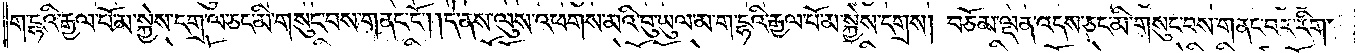ག་དྷའི་རྒྱལ་པོ་མ་སྐྱེས་དགྲ་ལ་ཅང་མི་གསུང་བས་གནང་ངོ༌། །དེ་ནས་ལུས་འཕགས་མའི་བུ་ཡུལ་མ་ག་དྷའི་རྒྱལ་པོ་མ་སྐྱེས་དགྲས། བཅོམ་ལྡན་འདས་ཅང་མི་གསུང་བས་གནང་བར་རིག་
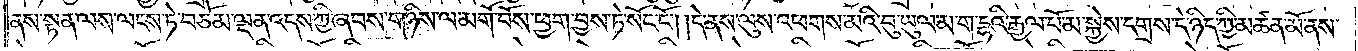ནས་སྟན་ལས་ལངས་ཏེ་བཅོམ་ལྡན་འདས་ཀྱི་ཞབས་གཉིས་ལ་མགོ་བོས་ཕྱག་བྱས་ཏེ་སོང་ངོ༌། །དེ་ནས་ལུས་འཕགས་མའི་བུ་ཡུལ་མ་ག་དྷའི་རྒྱལ་པོ་མ་སྐྱེས་དགྲས་དེ་ཉིད་ཀྱི་མཚན་མོ་ནས་
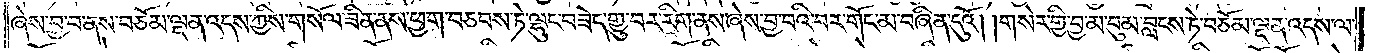ཞེས་བྱ་བ་ནས་བཅོམ་ལྡན་འདས་ཀྱིས་གསོལ་ཟིན་ནས་ཕྱག་བཅབས་ཏེ་ལྷུང་བཟེད་གྱུ་བར་རིག་ནས་ཞེས་བྱ་བའི་བར་གོང་མ་བཞིན་དུའོ། །གསེར་གྱི་བྱ་མ་བུམ་བླངས་ཏེ་བཅོམ་ལྡན་འདས་ལ་
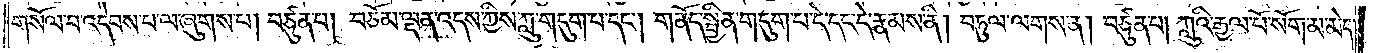གསོལ་བ་འདེབས་པ་ལ་ཞུགས་པ། བཙུན་པ། བཅོམ་ལྡན་འདས་ཀྱིས་ཀླུ་གདུག་པ་དང༌། གནོད་སྦྱིན་གདུག་པ་དེ་དང་དེ་རྣམས་ནི། བཏུལ་ལགས་ན། བཙུན་པ། ཀླུའི་རྒྱལ་པོ་སོག་མ་མེད།
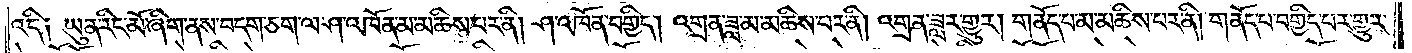འདི༑ ཡུན་རིང་མོ་ཞིག་ནས་བདག་ཅག་ལ་ཤ་འཁོན་མ་མཆིས་པར་ནི། ཤ་འཁོན་བགྱིད། འགྲན་ཟླ་མ་མཆིས་པར་ནི། འགྲན་ཟླར་གྱུར། གནོད་པ་མ་མཆིས་པར་ནི། གནོད་པ་བགྱིད་པར་གྱུར་
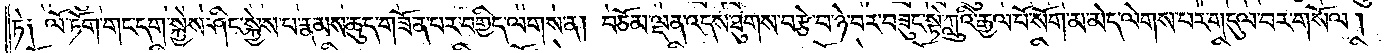ཏེ༑ ལོ་ཏོག་གང་དག་སྐྱེས་ཤིང་སྐྱེས་པ་རྣམས་ཆུད་གཟོན་པར་བགྱིད་ལགས་ན། བཅོམ་ལྡན་འདས་ཐུགས་བརྩེ་བ་ཉེ་བར་བཟུང་སྟེ་ཀླུའི་རྒྱལ་པོ་སོག་མ་མེད་ལེགས་པར་གདུལ་བར་གསོལ།
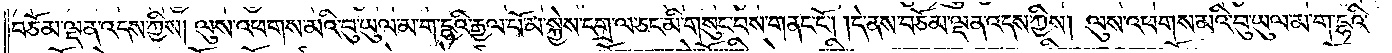བཅོམ་ལྡན་འདས་ཀྱིས། ལུས་འཕགས་མའི་བུ་ཡུལ་མ་ག་དྷའི་རྒྱལ་པོ་མ་སྐྱེས་དགྲ་ལ་ཅང་མི་གསུང་བས་གནང་ངོ༌། །དེ་ནས་བཅོམ་ལྡན་འདས་ཀྱིས། ལུས་འཕགས་མའི་བུ་ཡུལ་མ་ག་དྷའི་
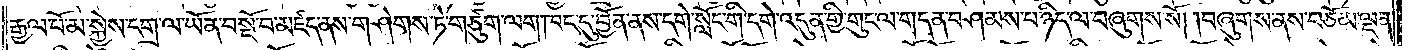རྒྱལ་པོ་མ་སྐྱེས་དགྲ་ལ་ཡོན་བསྔོ་བ་མཛད་ནས་གཤེགས་ཏེ་གཙུག་ལག་ཁང་དུ་བྱོན་ནས་དགེ་སློང་གི་དགེ་འདུན་གྱི་གུང་ལ་གདན་བཤམས་པ་ཉིད་ལ་བཞུགས་སོ། །བཞུགས་ནས་བཅོམ་ལྡན་
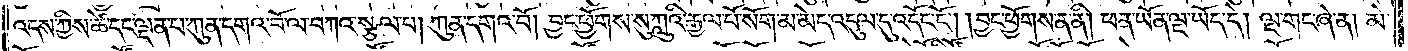འདས་ཀྱིས་ཚེ་དང་ལྡན་པ་ཀུན་དགའ་བོ་ལ་བཀའ་སྩལ་པ། ཀུན་དགའ་བོ། བྱང་ཕྱོགས་སུ་ཀླུའི་རྒྱལ་པོ་སོག་མ་མེད་འདུལ་དུ་འདོང་ངོ༌། །བྱང་ཕྱོགས་ན་ནི། ཕན་ཡོན་ལྔ་ཡོད་དེ། ལྔ་གང་ཞེ་ན། མེ་
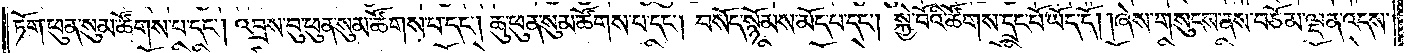ཏོག་ཕུན་སུམ་ཚོགས་པ་དང༌། འབྲས་བུ་ཕུན་སུམ་ཚོགས་པ་དང༌། ཆུ་ཕུན་སུམ་ཚོགས་པ་དང༌། བསོད་སྙོམས་མོད་པ་དང༌། སྐྱེ་བོའི་ཚོགས་དྲང་པོ་ཡོད་དོ། །ཞེས་གསུངས་ནས་བཅོམ་ལྡན་འདས་
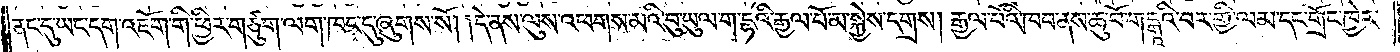ནང་དུ་ཡང་དག་འཇོག་གི་ཕྱིར་གཙུག་ལག་ཁང་དུ་ཞུགས་སོ། །དེ་ནས་ལུས་འཕགས་མའི་བུ་ཡུལ་ག་དྷའི་རྒྱལ་པོ་མ་སྐྱེས་དགྲས། རྒྱལ་པོའི་ཁབ་ནས་ཆུ་བོ་གངྒཱའི་བར་གྱི་ལམ་དང་གྲོང་ཁྱེར་
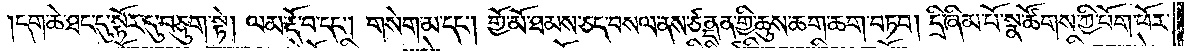དག་ཆེ་ཐང་དུ་སྟོར་དུ་བཅུག་སྟེ། ལམ་རྡོ་བ་དང༌། གསེག་མ་དང༌། གྱོ་མོ་ཐམས་ཅད་བསལ་ནས་ཙནྡན་གྱི་ཆུས་ཆག་ཆག་བཏབ། དྲི་ཞིམ་པོ་སྣ་ཚོགས་ཀྱི་པོག་ཕོར་
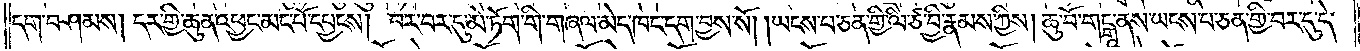དག་བཤམས། དར་གྱི་ཆུན་འཕྱང་མང་པོ་དཔྱངས། བར་བར་དུ་མེ་ཏོག་གི་གཞལ་མེད་ཁང་དག་བྱས་སོ། །ཡངས་པ་ཅན་གྱི་ལི་ཙ་བྱི་རྣམས་ཀྱིས། ཆུ་བོ་གངྒཱ་ནས་ཡངས་པ་ཅན་གྱི་བར་དུ་དེ་
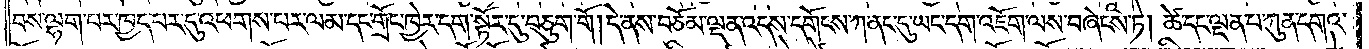བས་ལྷག་པར་ཁྱད་པར་དུ་འཕགས་པར་ལམ་དང་གྲོང་ཁྱེར་དག་སྟོར་དུ་བཅུག་གོ །དེ་ནས་བཅོམ་ལྡན་འདས་དགོངས་ཀ་ནང་དུ་ཡང་དག་འཇོག་ལས་བཞེངས་ཏེ། ཚེ་དང་ལྡན་པ་ཀུན་དགའ་
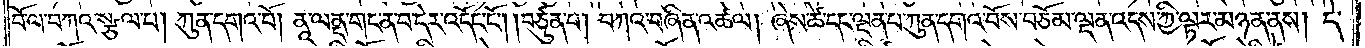བོ་ལ་བཀའ་སྩལ་པ། ཀུན་དགའ་བོ། ནཱ་ལནྡ་གང་ན་བ་དེར་འདོང་ངོ༌། །བཙུན་པ། བཀའ་བཞིན་འཚལ། ཞེས་ཚེ་དང་ལྡན་པ་ཀུན་དགའ་བོས་བཅོམ་ལྡན་འདས་ཀྱི་ལྟར་མཉན་ནས། དེ་
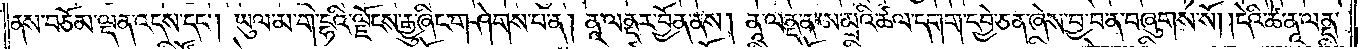ནས་བཅོམ་ལྡན་འདས་དང༌། ཡུལ་མ་ག་དྷའི་ལྗོངས་རྒྱུ་ཞིང་གཤེགས་པ་ན། ནཱ་ལནྡར་བྱོན་ནས། ནཱ་ལནྡ་ན་ཨ་མྲའི་ཚལ་དགག་དབྱེ་ཅན་ཞེས་བྱ་བ་ན་བཞུགས་སོ། །དེའི་ཚེ་ནཱ་ལནྡ་
